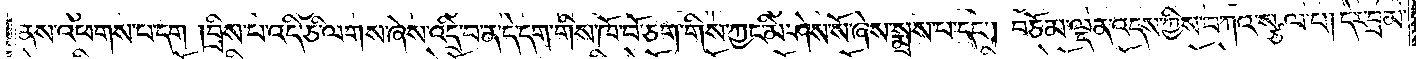ནས་འཕགས་པ་དག །བྲིས་པ་འདི་ཅི་ལགས་ཞེས་འདྲི་བ་ན་དེ་དག་གིས་ཁོ་བོ་ཅག་གིས་ཀྱང་མི་ཤེས་སོ་ཞས་སྨྲས་པ་དང༌། བཅོམ་ལྡན་འདས་ཀྱིས་བཀའ་སྩལ་པ། དེར་བྲམ་
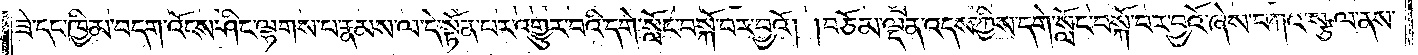ཟེ་དང་ཁྱིམ་བདག་འོངས་ཤིང་ལྷགས་པ་རྣམས་ལ་དེ་སྟོན་པར་འགྱུར་བའི་དགེ་སློང་བསྐོ་བར་བྱའོ། །བཅོམ་ལྡན་འདས་ཀྱིས་དགེ་སློང་བསྐོ་བར་བྱའོ་ཞེས་བཀའ་སྩལ་ནས་
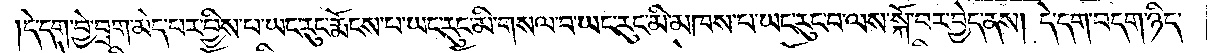དེ་དག་བྱེ་བྲག་མེད་པར་བྱིས་པ་ཡང་རུང་རྨོངས་པ་ཡང་རུང་མི་གསལ་བ་ཡང་རུང་མི་མཁས་པ་ཡང་རུང་བ་ལས་སྐོ་བར་བྱེད་ནས། དེ་དག་བདག་ཉིད་
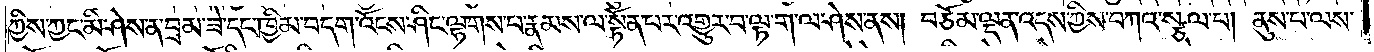ཀྱིས་ཀྱང་མི་ཤེས་ན་བྲམ་ཟེ་དང་ཁྱིམ་བདག་འོངས་ཤིང་ལྷགས་པ་རྣམས་ལ་སྟོན་པར་འགྱུར་བ་ལྟ་ག་ལ་ཤེས་ནས། བཅོམ་ལྡན་འདས་ཀྱིས་བཀའ་སྩལ་པ། ནུས་པ་ལས་
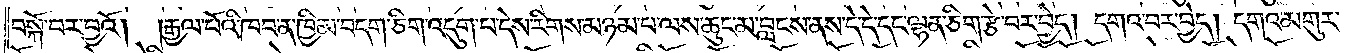བསྐོ་བར་བྱའོ། །རྒྱལ་པོའི་ཁབ་ན་ཁྱིམ་བདག་ཅིག་འདུག་པ་དེས་རིགས་མཉམ་པ་ལས་ཆུང་མ་བླངས་ནས་དེ་དེ་དང་ལྷན་ཅིག་རྩེ་བར་བྱེད། དགའ་བར་བྱེད། དགའ་མགུར་
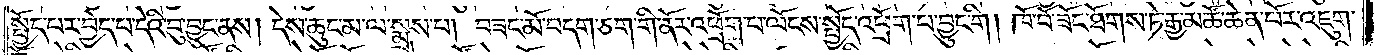སྤྱོད་པར་བྱེད་པ་དེའི་བུ་བྱུང་ནས། དེས་ཆུང་མ་ལ་སྨྲས་པ། བཟང་མོ་བདག་ཅག་གི་ནོར་འཕྲོག་པ་ལོངས་སྤྱོད་འཕྲོག་པ་བྱུང་གི། ཁོ་བོ་ཟོང་ཐོགས་ཏེ་རྒྱ་མཚོ་ཆེན་པོར་འཇུག་
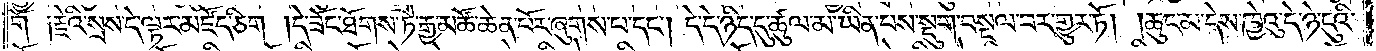གོ  ༑རྗེའི་སྲས་དེ་ལྟར་མཛོད་ཅིག །དེ་ཟོང་ཐོགས་ཏེ་རྒྱ་མཚོ་ཆེན་པོར་ཞུགས་པ་དང༌། དེ་དེ་ཉིད་དུ་ཚུལ་མ་ཡིན་པས་སྡུག་བསྔལ་བར་གྱུར་ཏོ། །ཆུང་མ་དེས་ཁྱེའུ་དེ་ཉེ་ངུའི་
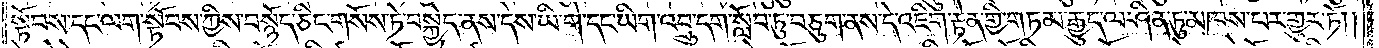སྟོབས་དང་ལག་སྟོབས་ཀྱིས་བསྙོད་ཅིང་གསོས་ཏེ་བསྐྱེད་ནས་དེས་ཡི་གེ་དང་ཡིག་འབྲུ་དག་སློབ་ཏུ་བཅུག་ནས་དེ་འཇིག་རྟེན་གྱི་གཏམ་རྒྱུད་ལ་ཤིན་ཏུ་མཁས་པར་གྱུར་ཏོ༎
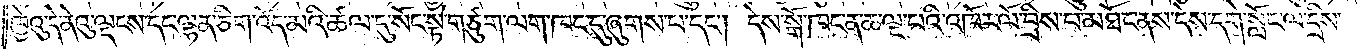ཁྱེའུ་དེ་ནེའུ་ལྡངས་དང་ལྷན་ཅིག་འོད་མའི་ཚལ་དུ་སོང་སྟེ་གཙུག་ལག་ཁང་དུ་ཞུགས་པ་དང༌། དེས་སྒོ་ཁང་ན་ཆ་ལྔ་པའི་འཁོར་ལོ་བྲིས་པ་མཐོང་ནས་དེས་དགེ་སློང་ལ་དྲིས་
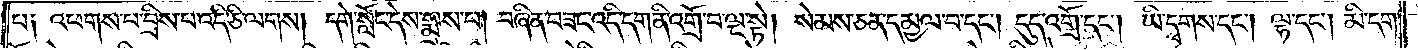པ༑ འཕགས་པ་བྲིས་པ་འདི་ཅི་ལགས། དགེ་སློང་དེས་སྨྲས་པ། བཞིན་བཟང་འདི་དག་ནི་འགྲོ་བ་ལྔ་སྟེ། སེམས་ཅན་དམྱལ་བ་དང༌། དུད་འགྲོ་དང༌། ཡི་དྭགས་དང༌། ལྷ་དང༌། མི་དག་
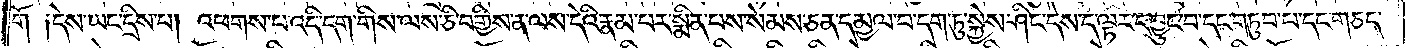གོ  ༑དེས་ཡང་དྲིས་པ། འཕགས་པ་འདི་དག་གིས་ལས་ཅི་བགྱིས་ན་ལས་དེའི་རྣམ་པར་སྨིན་པས་སེམས་ཅན་དམྱལ་བ་དག་ཏུ་སྐྱེས་ཤིང་དེས་ད་ལྟར་དབྱུང་བ་དང་གཏུབ་པ་དང་གཅད་
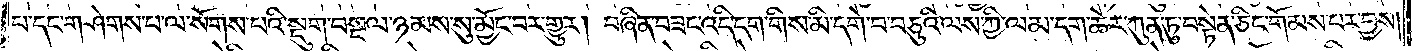པ་དང་གཤེགས་པ་ལ་སོགས་པའི་སྡུག་བསྔལ་ཉམས་སུ་མྱོང་བར་གྱུར། བཞིན་བཟང་འདི་དག་གིས་མི་དགེ་བ་བཅུའི་ལས་ཀྱི་ལམ་དག་ཆེར་ཀུན་ཏུ་བསྟེན་ཅིང་གོམས་པར་བྱས།
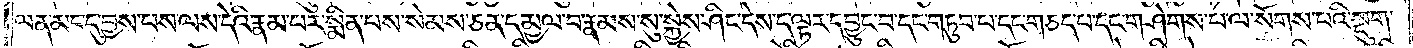ལན་མང་དུ་བྱས་པས་ལས་དེའི་རྣམ་པར་སྨིན་པས་སེམས་ཅན་དམྱལ་བ་རྣམས་སུ་སྐྱེས་ཤིང་དེས་ད་ལྟར་དབྱུང་བ་དང་གཏུབ་པ་དང་གཅད་པ་དང་གཤེགས་པ་ལ་སོགས་པའི་སྡུག་
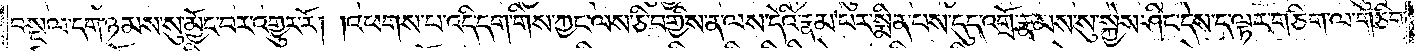བསྔལ་དག་ཉམས་སུ་མྱོང་བར་འགྱུར་རོ། །འཕགས་པ་འདི་དག་གིས་ཀྱང་ལས་ཅི་བགྱིས་ན་ལས་དེའི་རྣམ་པར་སྨིན་པས་དུད་འགྲོ་རྣམས་སུ་སྐྱེས་ཤིང་དེས་ད་ལྟར་གཅིག་ལ་གཅིག་
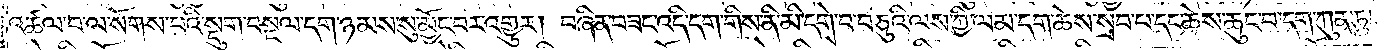འཚལ་བ་ལ་སོགས་པའི་སྡུག་བསྔལ་དག་ཉམས་སུ་མྱོང་བར་འགྱུར། བཞིན་བཟང་འདི་དག་གིས་ནི་མི་དགེ་བ་བཅུའི་ལས་ཀྱི་ལམ་དག་ཆེས་སྲབ་པ་དང་ཆེས་ཆུང་བ་དག་ཀུན་ཏུ་
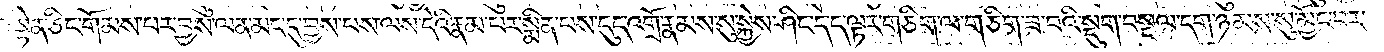བསྟེན་ཅིང་གོམས་པར་བྱས་ལན་མང་དུ་བྱས་པས་ལས་དེའི་རྣམ་པར་སྨིན་པས་དུད་འགྲོ་རྣམས་སུ་སྐྱེས་ཤིང་དེ་ད་ལྟར་གཅིག་ལ་གཅིག་ཟ་བའི་སྡུག་བསྔལ་དག་ཉམས་སུ་མྱོང་བར་
